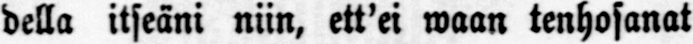della itseäni niin, ett'ei waan tenhosanat
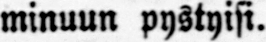minuun pystyisi.
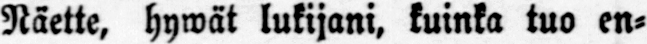Näette, hywät lukijani, kuinka tuo en-
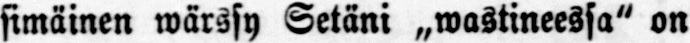simäinen wärssy Setäni „wastineessa" on
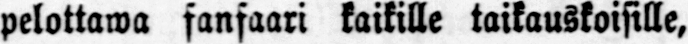pelottawa fanfaari kaikille taikauskoisille,
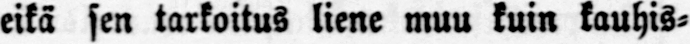eikä sen tarkoitus liene muu kuin kauhis-
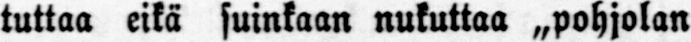tuttaa eikä suinkaan nukuttaa „pohjolan
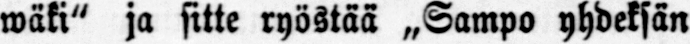wäki" ja sitte ryöstää „Sampo yhdeksän
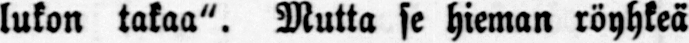lukon takaa". Mutta se hieman röyhkeä
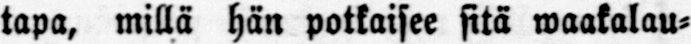tapa, millä hän potkaisee sitä waakalau-
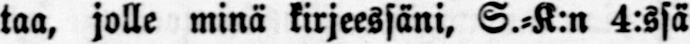taa, jolle minä kirjeessäni, S.-K:n 4:ssä
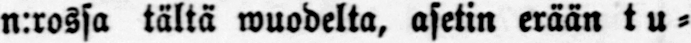n:rossa tältä wuodelta, asetin erään tu-
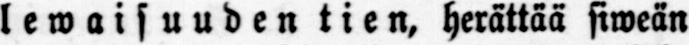lewaisuuden tien, herättää siweän
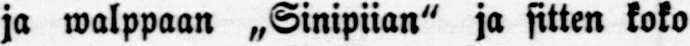ja walppaan „Sinipiian" ja sitten koko
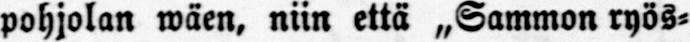pohjolan wäen, niin että „Sammon ryös-
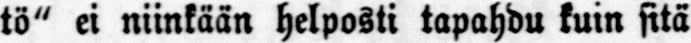tö" ei niinkään helposti tapahdu kuin sitä
